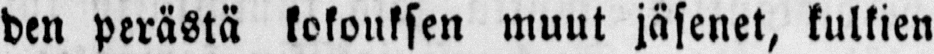den perästä kokouksen muut jäsenet, kulkien
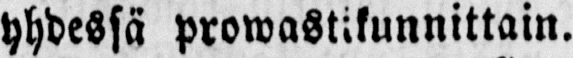yhdessä prowastikunnittain.
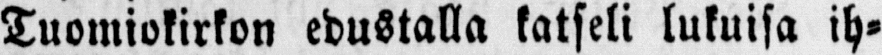Tuomiokirkon edustalla katseli lukuisa ih-
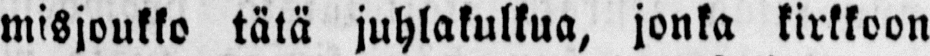misjoukko tätä juhlakulkua, jonka kirkkoon
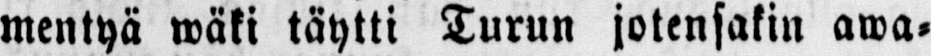mentyä wäki täytti Turun jotensakin awa-
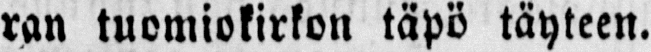ran tuomiokirkon täpö täyteen.
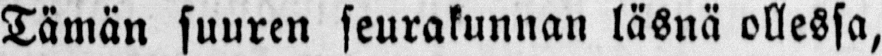Tämän suuren seurakunnan läsnä ollessa,
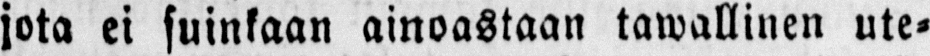jota ei suinkaan ainoastaan tawallinen ute-
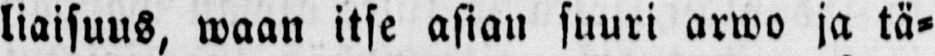liaisuus, waan itse asian suuri armo ja tä-
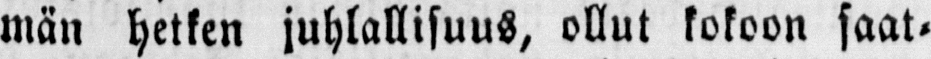män hetken juhlallisuus, ollut kokoon saat-
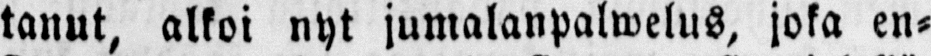tanut, alkoi nyt jumalanpalwelus, joka en-
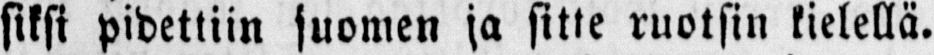siksi pidettiin suomen ja sitte ruotsin kielellä.
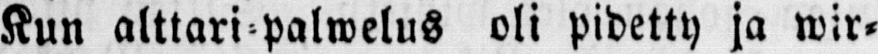Kun alttari-palwelus oli pidetty ja wir-
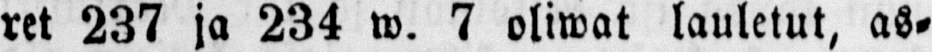ret 237 ja 234 w. 7 oliwat lauletut, as-
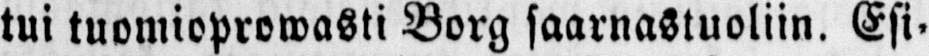tui tuomioprowasti Borg saarnastuoliin. Esi-
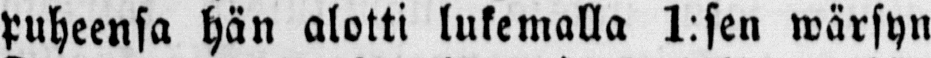puheensa hän alotti lukemalla 1:sen wärsyn
